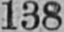138
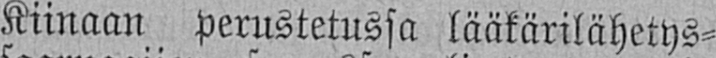Kiinaan perustetussa lääkärilähetys-
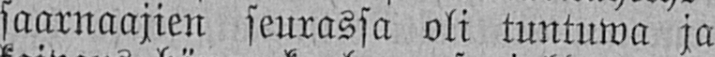saarnaajien seurassa oli tuntuwa ja
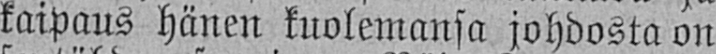kaipaus hänen kuolemansa johdosta on
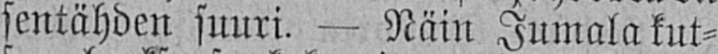sentähden suuri. — Näin Jumala kut-
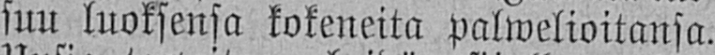suu luoksensa kokeneita palwelioitansa.
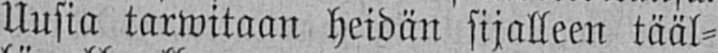Uusia tarwitaan heidän sijalleen tääl-
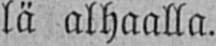lä alhaalla.
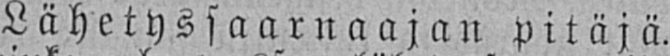Lähetyssaarnaajan pitäjä.
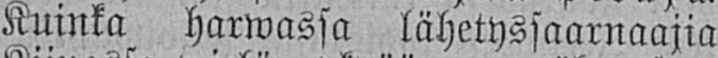Kuinka harwassa lähetyssaarnaajia
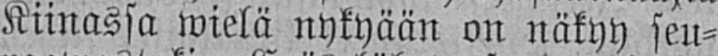Kiinassa wielä nykyään on näkyy seu-
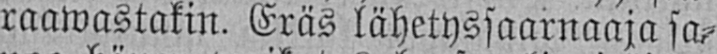raawastakin. Eräs lähetyssaarnaaja sa-
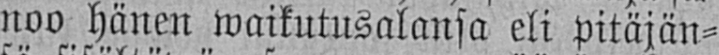noo hänen waikutusalansa eli pitäjän-
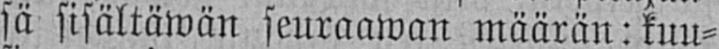sä sisältäwän seuraawan määrän: kuu-
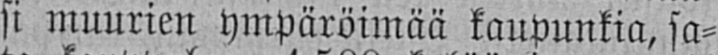si muurien ympäröimää kaupunkia, sa-
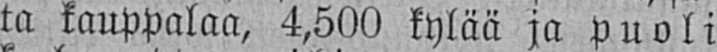ta kauppalaa, 4,500 kylää ja puoli
